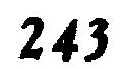243
